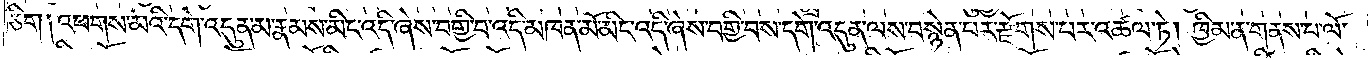ཅིག ༑འཕགས་མའི་དགེ་འདུན་མ་རྣམས་མིང་འདི་ཞེས་བགྱི་བ་འདི་མཁན་མོ་མིང་འདི་ཞེས་བགྱི་བས་དགེ་འདུན་ལས་བསྙེན་པར་རྫོགས་པར་འཚལ་ཏེ། ཁྱིམ་ན་གནས་པ་ལོ་
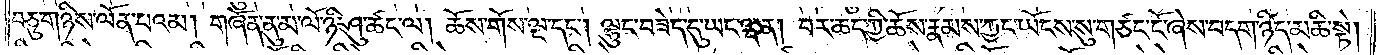བཅུ་གཉིས་ལོན་པའམ། གཞོན་ནུ་མ་ལོ་ཉི་ཤུ་ཚང་ལ། ཆོས་གོས་ལྔ་དང༌། ལྷུང་བཟེད་དུ་ཡང་ལྡན། བར་ཆད་ཀྱི་ཆོས་རྣམས་ཀྱང་ཡོངས་སུ་གཙང་ངོ་ཞེས་བདག་ཉིད་མཆི་སྟེ།
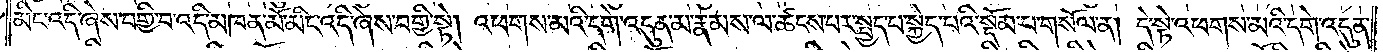མིང་འདི་ཞེས་བགྱི་བ་འདི་མཁན་མོ་མིང་འདི་ཞེས་བགྱི་སྟེ། འཕགས་མའི་དགེ་འདུན་མ་རྣམས་ལ་ཚངས་པར་སྤྱད་པ་སྐྱེད་པའི་སྡོམ་པ་གསོལ་ན། དེ་སྟེ་འཕགས་མའི་དགེ་འདུན་
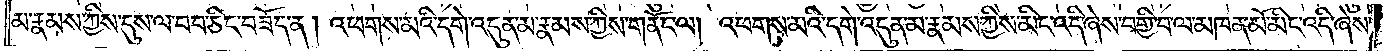མ་རྣམས་ཀྱིས་དུས་ལ་བབ་ཅིང་བཟོད་ན། འཕགས་མའི་དགེ་འདུན་མ་རྣམས་ཀྱིས་གནོང་ལ། འཕགས་མའི་དགེ་འདུན་མ་རྣམས་ཀྱིས་མིང་འདི་ཞེས་བགྱི་བ་ལ་མཁན་མོ་མིང་འདི་ཞེས་
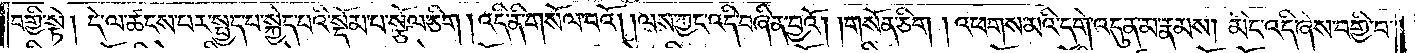བགྱི་སྟེ། དེ་ལ་ཚངས་པར་སྤྱད་པ་སྐྱེད་པའི་སྡོམ་པ་སྩོལ་ཅིག །འདི་ནི་གསོལ་བའོ། །ལས་ཀྱང་འདི་བཞིན་བྱའོ། །གསོན་ཅིག །འཕགས་མའི་དགེ་འདུན་མ་རྣམས། མིང་འདི་ཞེས་བགྱི་བ་
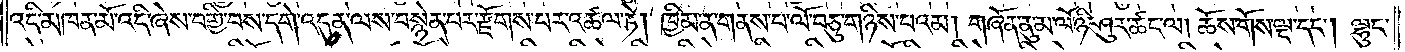འདི་མཁན་མོ་འདི་ཞེས་བགྱི་བས་དགེ་འདུན་ལས་བསྙེན་པར་རྫོགས་པར་འཚལ་ཏེ། ཁྱིམ་ན་གནས་པ་ལོ་བཅུ་གཉིས་པའམ། གཞོན་ནུ་མ་ལོ་ཉི་ཤུར་ཚང་ལ། ཆོས་གོས་ལྔ་དང༌། ལྷུང་
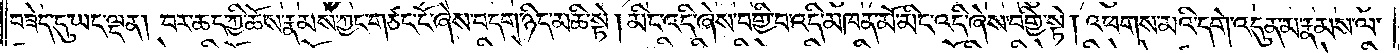བཟེད་དུ་ཡང་ལྡན། བར་ཆད་ཀྱི་ཆོས་རྣམས་ཀྱང་གཙང་ངོ་ཞེས་བདག་ཉིད་མཆི་སྟེ། མིང་འདི་ཞེས་བགྱི་བ་འདི་མཁན་མོ་མིང་འདི་ཞེས་བགྱི་སྟེ། འཕགས་མའི་དགེ་འདུན་མ་རྣམས་ལ་
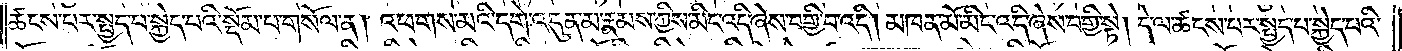ཚངས་པར་སྤྱད་པ་སྐྱེད་པའི་སྡོམ་པ་གསོལ་ན། འཕགས་མའི་དགེ་འདུན་མ་རྣམས་ཀྱིས་མིང་འདི་ཞེས་བགྱི་བ་འདི། མཁན་མོ་མིང་འདི་ཞེས་བགྱི་སྟེ། དེ་ལ་ཚངས་པར་སྤྱད་པ་སྐྱེད་པའི་
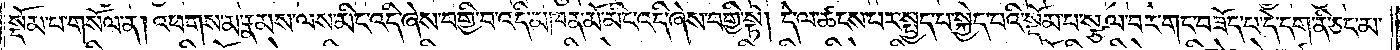སྡོམ་པ་གསོལ་ན། འཕགས་མ་རྣམས་ལས་མིང་འདི་ཞེས་བགྱི་བ་འདི་མཁན་མོ་མིང་འདི་ཞེས་བགྱི་སྟེ། དེ་ལ་ཚངས་པར་སྤྱད་པ་སྐྱེད་པའི་སྡོམ་པ་སྩལ་བར་གང་བཟོད་པ་དེ་དག་ནི་ཅང་མ་
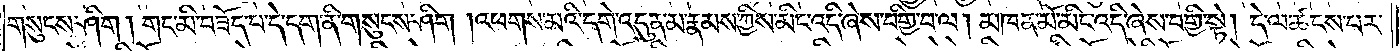གསུངས་ཤིག། གང་མི་བཟོད་པ་དེ་དག་ནི་གསུངས་ཤིག །འཕགས་མའི་དགེ་འདུན་མ་རྣམས་ཀྱིས་མིང་འདི་ཞེས་བགྱི་བ་ལ། མཁན་མོ་མིང་འདི་ཞེས་བགྱི་སྟེ། དེ་ལ་ཚངས་པར་
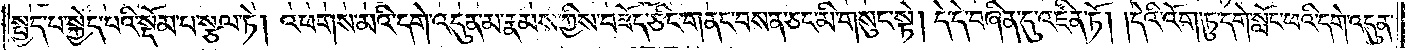སྤྱད་པ་སྐྱེད་པའི་སྡོམ་པ་སྩལ་ཏེ། འཕགས་མའི་དགེ་འདུན་མ་རྣམས་ཀྱིས་བཟོད་ཅིང་གནང་བས་ན་ཅང་མི་གསུང་སྟེ། དེ་དེ་བཞིན་དུ་འཛིན་ཏོ། །དེའི་འོག་ཏུ་དགེ་སློང་ཕའི་དགེ་འདུན་
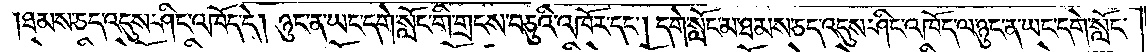ཐམས་ཅད་འདུས་ཤིང་འཁོད་དེ། ཉུང་ན་ཡང་དགེ་སློང་གི་གྲངས་བཅུའི་འཁོར་དང༌། དགེ་སློང་མ་ཐམས་ཅད་འདུས་ཤིང་འཁོད་ལ་ཉུང་ན་ཡང་དགེ་སློང་
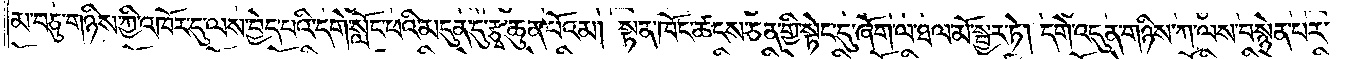མ་བཅུ་གཉིས་ཀྱི་འཁོར་དུ་ལས་བྱེད་པའི་དགེ་སློང་ཕའི་མདུན་དུ་རྩྭ་ཆུན་པོའམ། སྟན་ཁོང་ཚངས་ཅན་གྱི་སྟེང་དུ་ཞོག་ལ་ཐལ་མོ་སྦྱར་ཏེ། དགེ་འདུན་གཉིས་ཀ་ལས་བསྙེན་པར་
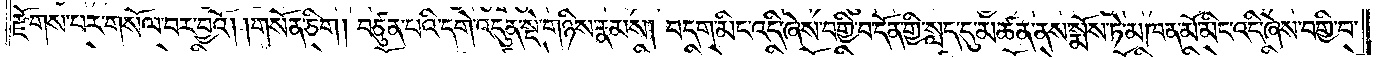རྫོགས་པར་གསོལ་བར་བྱའོ། །གསོན་ཅིག །བཙུན་པའི་དགེ་འདུན་སྡེ་གཉིས་རྣམས། བདག་མིང་འདི་ཞེས་བགྱི་བ་དོན་གྱི་སླད་དུ་མཚན་ནས་སྨོས་ཏེ་མཁན་མོ་མིང་འདི་ཞེས་བགྱི་བ་
